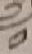༡
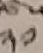༢༡
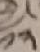༡༢
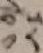༡༨
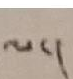ལ་།
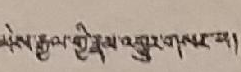མེས་རྒྱལ་གྱི་རྣམ་འགྱུར་གསར་པ།
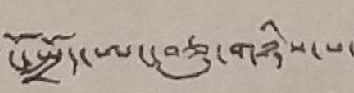"ངོ་སྤྲོད་ཨང་བཅུ་གཉིས་པ་"
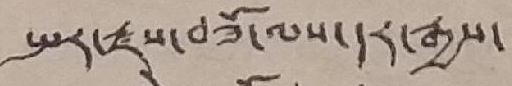སྤར་རྫས་བཟོ་ལས་དར་རྒྱས་
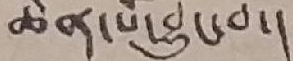ཆེན་པོ་བྱུང་བ་།
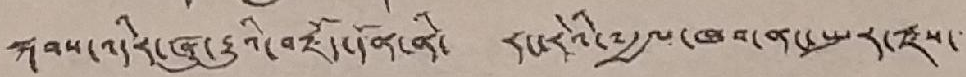སྐབས་འདིར་ཞུ་རྒྱུའི་བརྗོད་དོན་ནི་ རང་རེའི་༸རྒྱལ་ཁབ་ནང་སྤར་རྫས་་་་
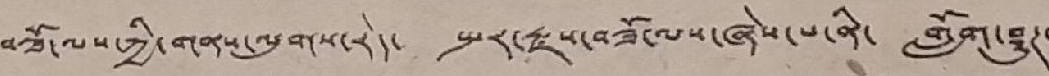བཟོ་ལས་ཀྱི་གནས་ལུགས་རེད་ སྤར་རྫས་བཟོ་ལས་ཞེས་པ་ནི་ གློག་ཤུཊ་
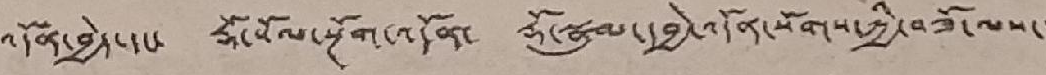འདོན་བྱེད་དང་ རྡོ་སོལ་སྔོག་འདོན་ རྡོ་སྣུམ་དབྱེ་འདོན་སོགས་ཀྱི་བཟོ་ལས་་
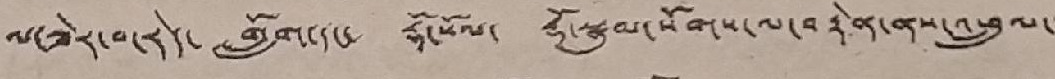ལ་ཟེར་བ་རེད་ གློག་དང་ རྡོ་སོལ་ རྡོ་སྣུམ་སོགས་ལ་བརྟེན་ནས་འཕྲུལ་་
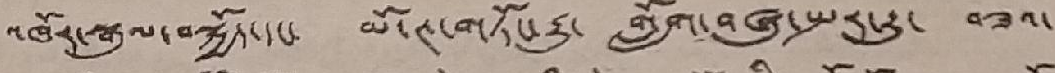འཁོར་སྒུལ་བསྐྱོད་དང་ མོ་ཊ་གཏོང་རྒྱུ་ གློག་བཞུ་སྤར་རུ་ བཟའ་
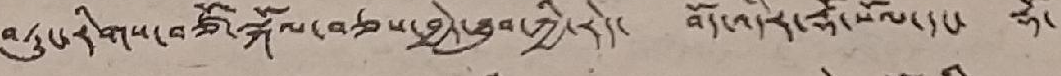བཏུང་རིགས་བཙོ་སྐོལ་བཅས་བྱེད་ཐུབ་ཀྱི་རེད་ བོད་འདིར་རྡོ་སོལ་དང་ རྡོ་
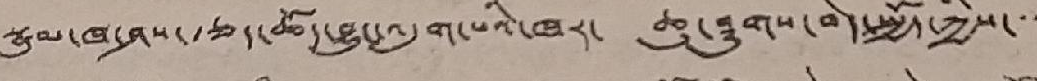སྣུམ་ཁ་ཤས་རྩད་ཆོད་བྱུང་འདུག་པའི་ཁར་ ཆུ་ཤུགས་བེད་སྤྱོད་ཀྱིས་་་་
